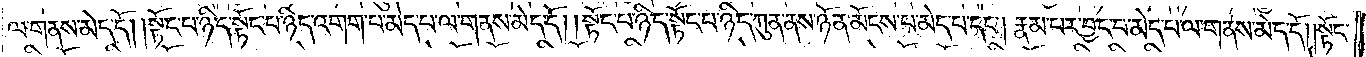ལ་གནས་མེད་དོ། །སྟོང་པ་ཉིད་སྟོང་པ་ཉིད་འགག་པ་མེད་པ་ལ་གནས་མེད་དོ། །སྟོང་པ་ཉིད་སྟོང་པ་ཉིད་ཀུན་ནས་ཉོན་མོངས་པ་མེད་པ་དང༌། རྣམ་པར་བྱང་བ་མེད་པ་ལ་གནས་མེད་དོ། །སྟོང་
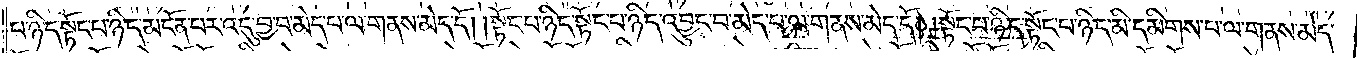པ་ཉིད་སྟོང་པ་ཉིད་མངོན་པར་འདུ་བྱ་བ་མེད་པ་ལ་གནས་མེད་དོ། །སྟོང་པ་ཉིད་སྟོང་པ་ཉིད་འབྱུང་བ་མེད་པ་ལ་གནས་མེད་དོ། །སྟོང་པ་ཉིད་སྟོང་པ་ཉིད་མི་དམིགས་པ་ལ་གནས་མེད་
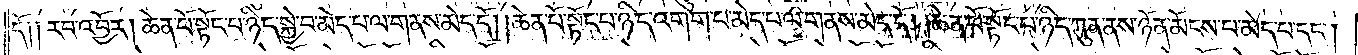དོ། །རབ་འབྱོར། ཆེན་པོ་སྟོང་པ་ཉིད་སྐྱེ་བ་མེད་པ་ལ་གནས་མེད་དོ། །ཆེན་པོ་སྟོང་པ་ཉིད་འགག་པ་མེད་པ་ལ་གནས་མེད་དོ། །ཆེན་པོ་སྟོང་པ་ཉིད་ཀུན་ནས་ཉོན་མོངས་པ་མེད་པ་དང༌།
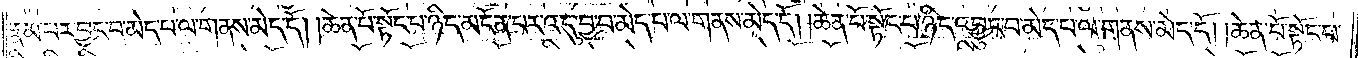རྣམ་པར་བྱང་བ་མེད་པ་ལ་གནས་མེད་དོ། །ཆེན་པོ་སྟོང་པ་ཉིད་མངོན་པར་འདུ་བྱ་བ་མེད་པ་ལ་གནས་མེད་དོ། །ཆེན་པོ་སྟོང་པ་ཉིད་འབྱུང་པ་མེད་པ་ལ་གནས་མེད་དོ། །ཆེན་པོ་སྟོང་པ་
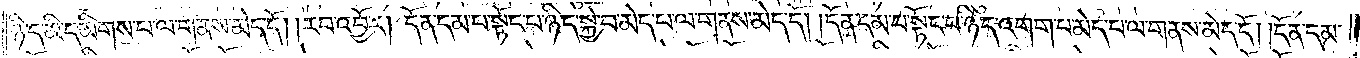ཉིད་མི་དམིགས་པ་ལ་གནས་མེད་དོ། །རབ་འབྱོར། དོན་དམ་པ་སྟོང་པ་ཉིད་སྐྱེ་བ་མེད་པ་ལ་གནས་མེད་དོ། །དོན་དམ་པ་སྟོང་པ་ཉིད་འགག་པ་མེད་པ་ལ་གནས་མེད་དོ། །དོན་དམ་
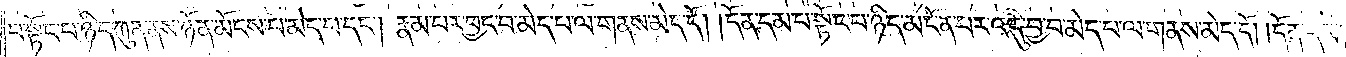པ་སྟོང་པ་ཉིད་ཀུན་ནས་ཉོན་མོངས་པ་མེད་པ་དང༌། རྣམ་པར་བྱང་བ་མེད་པ་ལ་གནས་མེད་དོ། །དོན་དམ་པ་སྟོང་པ་ཉིད་མངོན་པར་འདུ་བྱ་བ་མེད་པ་ལ་གནས་མེད་དོ། །དོན་དམ་
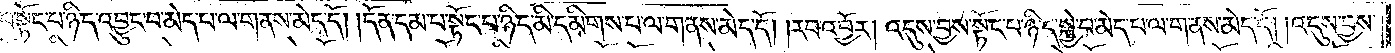པ་སྟོང་པ་ཉིད་འབྱུང་བ་མེད་པ་ལ་གནས་མེད་དོ། དོན་དམ་པ་སྟོང་པ་ཉིད་མི་དམིགས་པ་ལ་གནས་མེད་དོ། །རབ་འབྱོར། འདུས་བྱས་སྟོང་པ་ཉིད་སྐྱེ་བ་མེད་པ་ལ་གནས་མེད་དོ། །འདུས་བྱས་
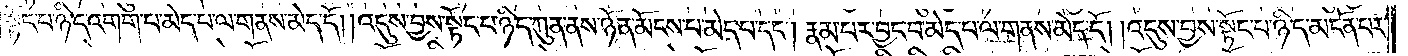སྟོང་པ་ཉིད་འགག་པ་མེད་པ་ལ་གནས་མེད་དོ། །འདུས་བྱས་སྟོང་པ་ཉིད་ཀུན་ནས་ཉོན་མོངས་པ་མེད་པ་དང༌། རྣམ་པར་བྱང་བ་མེད་པ་ལ་གནས་མེད་དོ། །འདུས་བྱས་སྟོང་པ་ཉིད་མངོན་པར་
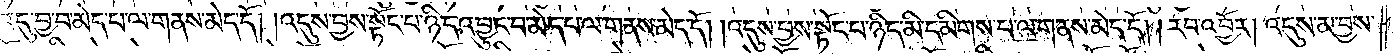འདུ་བྱ་བ་མེད་པ་ལ་གནས་མེད་དོ། །འདུས་བྱས་སྟོང་པ་ཉིད་འབྱུང་བ་མེད་པ་ལ་གནས་མེད་དོ། །འདུས་བྱས་སྟོང་པ་ཉིད་མི་དམིགས་པ་ལ་གནས་མེད་དོ། །རབ་འབྱོར། འདུས་མ་བྱས་
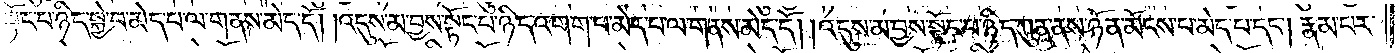སྟོང་པ་ཉིད་སྐྱེ་བ་མེད་པ་ལ་གནས་མེད་དོ། །འདུས་མ་བྱས་སྟོང་པ་ཉིད་འགག་པ་མེད་པ་ལ་གནས་མེད་དོ། །འདུས་མ་བྱས་སྟོང་པ་ཉིད་ཀུན་ནས་ཉོན་མོངས་པ་མེད་པ་དང༌། རྣམ་པར་
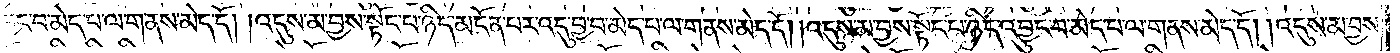བྱང་བ་མེད་པ་ལ་གནས་མེད་དོ། །འདུས་མ་བྱས་སྟོང་པ་ཉིད་མངོན་པར་འདུ་བྱ་བ་མེད་པ་ལ་གནས་མེད་དོ། །འདུས་མ་བྱས་སྟོང་པ་ཉིད་འབྱུང་བ་མེད་པ་ལ་གནས་མེད་དོ། །འདུས་མ་བྱས་
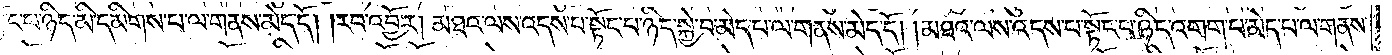སྟོང་པ་ཉིད་མི་དམིགས་པ་ལ་གནས་མེད་དོ། །རབ་འབྱོར། མཐའ་ལས་འདས་པ་སྟོང་པ་ཉིད་སྐྱེ་བ་མེད་པ་ལ་གནས་མེད་དོ། །མཐའ་ལས་འདས་པ་སྟོང་པ་ཉིད་འགག་པ་མེད་པ་ལ་གནས་
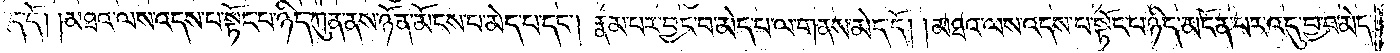མེད་དོ། །མཐའ་ལས་འདས་པ་སྟོང་པ་ཉིད་ཀུན་ནས་ཉོན་མོངས་པ་མེད་པ་དང༌། རྣམ་པར་བྱང་བ་མེད་པ་ལ་གནས་མེད་དོ། །མཐའ་ལས་འདས་པ་སྟོང་པ་ཉིད་མངོན་པར་འདུ་བྱ་བ་མེད་
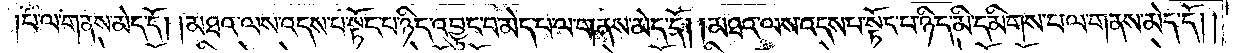པ་ལ་གནས་མེད་དོ། །མཐའ་ལས་འདས་པ་སྟོང་པ་ཉིད་འབྱུང་བ་མེད་པ་ལ་གནས་མེད་དོ། །མཐའ་ལས་འདས་པ་སྟོང་པ་ཉིད་མི་དམིགས་པ་ལ་གནས་མེད་དོ། །
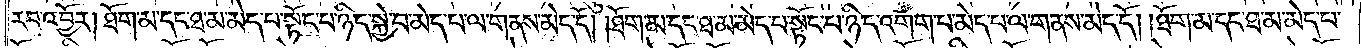རབ་འབྱོར། ཐོག་མ་དང་ཐ་མ་མེད་པ་སྟོང་པ་ཉིད་སྐྱེ་བ་མེད་པ་ལ་གནས་མེད་དོ། །ཐོག་མ་དང་ཐ་མ་མེད་པ་སྟོང་པ་ཉིད་འགག་པ་མེད་པ་ལ་གནས་མེད་དོ། །ཐོག་མ་དང་ཐ་མ་མེད་པ་
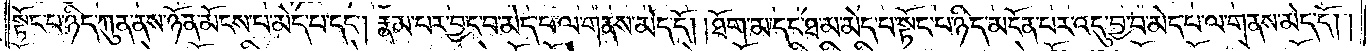སྟོང་པ་ཉིད་ཀུན་ནས་ཉོན་མོངས་པ་མེད་པ་དང༌། རྣམ་པར་བྱང་བ་མེད་པ་ལ་གནས་མེད་དོ། །ཐོག་མ་དང་ཐ་མ་མེད་པ་སྟོང་པ་ཉིད་མངོན་པར་འདུ་བྱ་བ་མེད་པ་ལ་གནས་མེད་དོ། །
